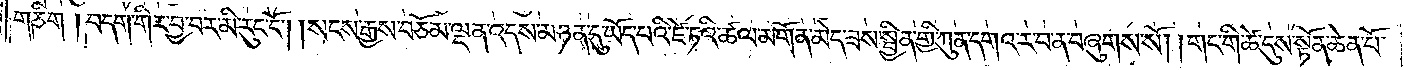གཅིག །བདག་གིར་བྱ་བར་མི་རུང་ངོ༌། །སངས་རྒྱས་བཅོམ་ལྡན་འདས་མཉན་དུ་ཡོད་པའི་ཛེ་ཏའི་ཚལ་མགོན་མེད་ཟས་སྦྱིན་གྱི་ཀུན་དགའ་ར་བ་ན་བཞུགས་སོ། །གང་གི་ཚེ་དུས་སྟོན་ཆེན་པོ་
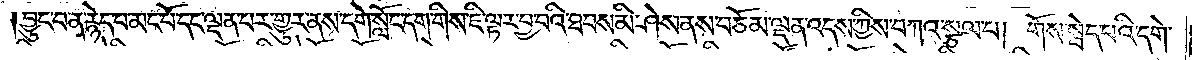བྱུང་བ་ན་རྙེད་པ་མང་པོ་དང་ལྡན་པར་གྱུར་ནས་དགེ་སློང་དག་གིས་ཇི་ལྟར་བྱ་བའི་ཐབས་མི་ཤེས་ནས་བཅོམ་ལྡན་འདས་ཀྱིས་བཀའ་སྩལ་པ། གོས་སྦེད་པའི་དགེ་
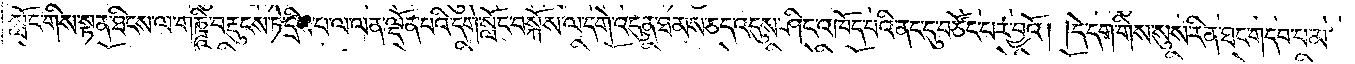སློང་གིས་སྟན་ཐིངས་ལ་གཎྜཱི་བརྡུངས་ཏེ་དྲིས་པ་ལ་ལན་ལྡོན་པའི་དགེ་སློང་བསྐོས་ལ་དགེ་འདུན་ཐམས་ཅད་འདུས་ཤིང་འཁོད་པའི་ནང་དུ་བཙོང་པར་བྱའོ། །དེ་དག་གིས་སུས་རིན་ཐང་གདབ་པ་མ་
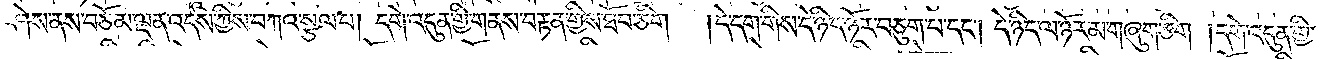ཤེས་ནས་བཅོམ་ལྡན་འདས་ཀྱིས་བཀའ་སྩལ་པ། དགེ་འདུན་གྱི་གནས་བརྟན་གྱིས་ཐོབ་ཅིག །དེ་དག་གིས་དེ་ཉིད་ཉོར་བཅུག་པ་དང༌། དེ་ཉིད་ལ་ཉོར་མ་གཞུག་ཅིག །དགེ་འདུན་གྱི་
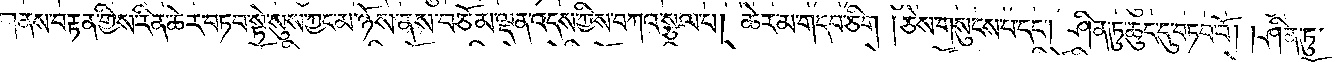གནས་བརྟན་གྱིས་རིན་ཆེར་བཏབ་སྟེ་སུས་ཀྱང་མ་ཉོས་ནས་བཅོམ་ལྡན་འདས་ཀྱིས་བཀའ་སྩལ་པ། ཆེར་མ་གདབ་ཅིག །ཅེས་གསུངས་པ་དང༌། ཤིན་ཏུ་ཆུང་དུ་བཏབ་བོ། །ཤིན་ཏུ་
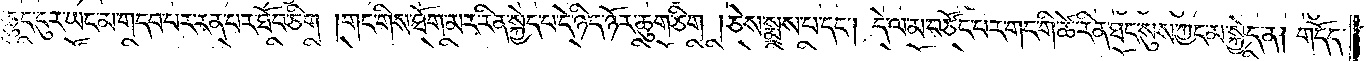ཆུང་ངུར་ཡང་མ་གདབ་པར་རན་པར་ཐོབ་ཅིག །གང་གིས་ཐོག་མར་རིན་སྐྱེད་པ་དེ་ཉིད་ཉོར་ཆུག་ཅིག །ཅེས་སྨྲས་པ་དང༌། དེ་ལ་མ་བཙོང་པར་གང་གི་ཚེ་རིན་ཐང་སུས་ཀྱང་མ་སྐྱེད་ན། གདོད་
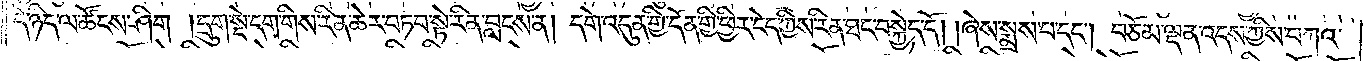དེ་ཉིད་ལ་ཚོངས་ཤིག །དྲུག་སྡེ་དག་གིས་རིན་ཆེར་བཏབ་སྟེ་རིན་བླངས་ན། དགེ་འདུན་གྱི་དོན་གྱི་ཕྱིར་ངེད་ཀྱིས་རིན་ཐང་བསྐྱེད་དོ། །ཞེས་སྨྲས་པ་དང༌། བཅོམ་ལྡན་འདས་ཀྱིས་བཀའ་
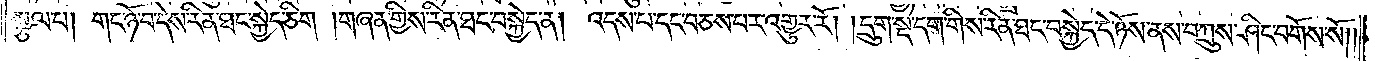སྩལ་པ། གང་ཉོ་བ་དེས་རིན་ཐང་སྐྱེད་ཅིག །གཞན་གྱིས་རིན་ཐང་བསྐྱེད་ན། འདས་པ་དང་བཅས་པར་འགྱུར་རོ། །དྲུག་སྡེ་དག་གིས་རིན་ཐང་བསྐྱེད་དེ་ཉོས་ནས་བཀྲུས་ཤིང་བགོས་སོ༎
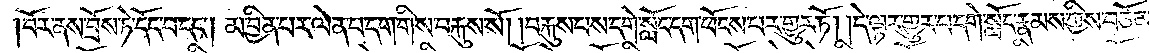བོར་ནས་བྲོས་ཏེ་དོང་བ་དང༌། མ་བྱིན་པར་ལེན་པ་དག་གིས་བརྐུས་སོ། །བརྐུས་པས་དགེ་སློང་དག་ཕོངས་པར་གྱུར་ཏོ། །དེ་ལྟར་གྱུར་པ་དགེ་སློང་རྣམས་ཀྱིས་བཅོམ་
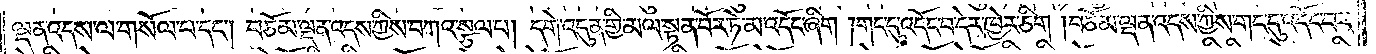ལྡན་འདས་ལ་གསོལ་པ་དང༌། བཅོམ་ལྡན་འདས་ཀྱིས་བཀའ་སྩལ་པ། དགེ་འདུན་གྱི་མལ་སྟན་བོར་ཏེ་མ་འདོང་ཞིག །གང་དུ་འདོང་བ་དེར་ཁྱེར་ཅིག །བཅོམ་ལྡན་འདས་ཀྱིས་གང་དུ་འདོང་བར་
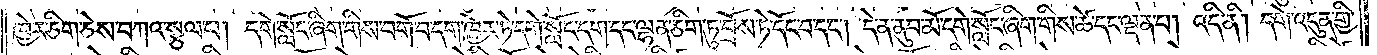ཁྱེར་ཅིག་ཅེས་བཀའ་སྩལ་པ། དགེ་སློང་ཞིག་གིས་བགོ་བ་དག་ཁྱེར་ཏེ་དགེ་སློང་དག་དང་ལྷན་ཅིག་ཏུ་བྲོས་ཏེ་དོང་བ་དང༌། དེ་ན་ནུབ་མོ་དགེ་སློང་ཞིག་གིས་ཚེ་དང་ལྡན་པ། འདི་ནི། དགེ་འདུན་གྱི་
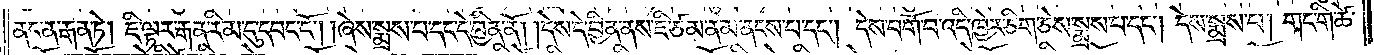ནང་ན་རྒན་ཏེ། ཇི་ལྟར་རྒན་རིམ་དུ་དབང་ངོ༌། །ཞེས་སྨྲས་པ་དང་དེ་བྱིན་ནོ། །དེས་དེ་བྱིན་ནས་ཇི་ཙམ་ནམ་ནངས་པ་དང༌། དེས་བགོ་བ་འདི་ཁྱེར་ཅིག་ཅེས་སྨྲས་པ་དང༌། དེས་སྨྲས་པ། གང་གི་ཚེ་
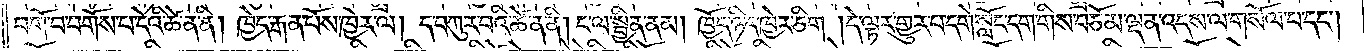བགོ་བ་བགོས་པ་དེའི་ཚེ་ན་ནི། ཁྱེད་རྒན་པོས་ཁྱེར་ལ། ད་བཀུར་བའི་ཚེ་ན་ནི། ང་ལ་སྦྱིན་ནམ། ཁྱོད་ཉིད་ཁྱེར་ཅིག །དེ་ལྟར་གྱུར་པ་དགེ་སློང་དག་གིས་བཅོམ་ལྡན་འདས་ལ་གསོལ་པ་དང༌།
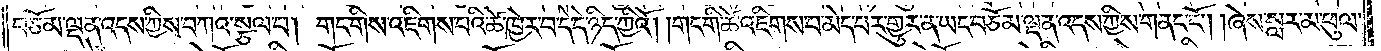བཅོམ་ལྡན་འདས་ཀྱིས་བཀའ་སྩལ་པ། གང་གིས་འཇིགས་པའི་ཚེ་ཁྱེར་བ་དེ་དེ་ཉིད་ཀྱིའོ། །གང་གི་ཚེ་འཇིགས་པ་མེད་པར་གྱུར་ན་ཡང་བཅོམ་ལྡན་འདས་ཀྱིས་གནང་ངོ༌། །ཞེས་སླར་མ་ཕུལ་
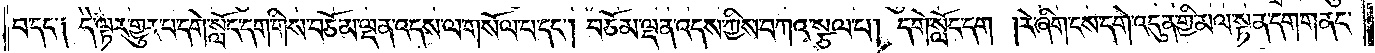བ་དང༌། དེ་ལྟར་གྱུར་པ་དགེ་སློང་དག་གིས་བཅོམ་ལྡན་འདས་ལ་གསོལ་པ་དང༌། བཅོམ་ལྡན་འདས་ཀྱིས་བཀའ་སྩལ་པ། དགེ་སློང་དག །རེ་ཞིག་ངས་དགེ་འདུན་གྱི་མལ་སྟན་དག་གནང་
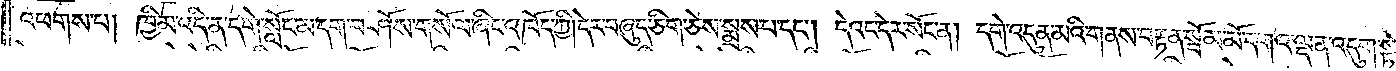འཕགས་པ། ཁྱིམ་འདི་ན་དགེ་སློང་མ་དག་བཤོས་གསོལ་ཞིང་འཁོད་ཀྱི། དེར་བཞུད་ཅིག་ཅེས་སྨྲས་པ་དང༌། དེའང་དེར་སོང་ན། དགེ་འདུན་མའི་གནས་བརྟན་སྦོམ་མོ་དགའ་ལྡན་འདུག་སྟེ།
